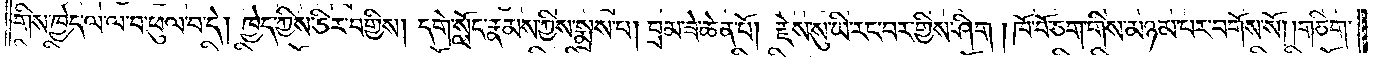གིས་ཁྱེད་ལ་ལ་བ་ཕུལ་བ་དེ། ཁྱེད་ཀྱིས་ཅིར་བགྱིས། དགེ་སློང་རྣམས་ཀྱིས་སྨྲས་པ། བྲམ་ཟེ་ཆེན་པོ། རྗེས་སུ་ཡི་རང་བར་གྱིས་ཤིག །ཁོ་བོ་ཅག་གིས་མཉམ་པར་བགོས་སོ། །གཅིག་
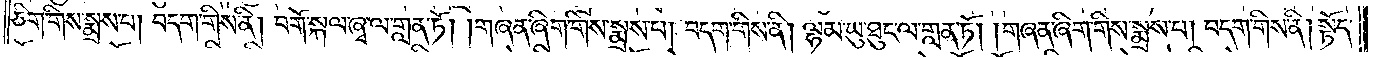ཅིག་གིས་སྨྲས་པ། བདག་གིས་ནི། བགོ་སྐལ་ཞྭ་ལ་གླན་ཏོ། །གཞན་ཞིག་གིས་སྨྲས་པ། བདག་གིས་ནི། ལྷམ་ཡུ་ཐུང་ལ་གླན་ཏོ། །གཞན་ཞིག་གིས་སྨྲས་པ། བདག་གིས་ནི། སྟོད་
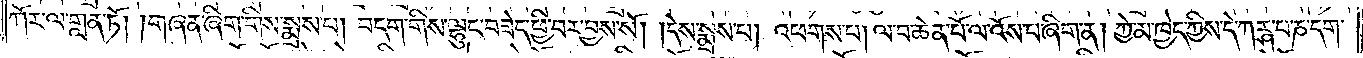ཀོར་ལ་གླན་ཏོ། །གཞན་ཞིག་གིས་སྨྲས་པ། བདག་གིས་ལྷུང་བཟེད་ཕྱི་བར་བྱས་སོ། །དེས་སྨྲས་པ། འཕགས་པ། ལ་བ་ཆེན་པོ་ལ་འོས་པ་ཞིག་ན། ཀྱེ་མ་ཁྱེད་ཀྱིས་དེ་ཀརྴ་པ་ཎ་དག་
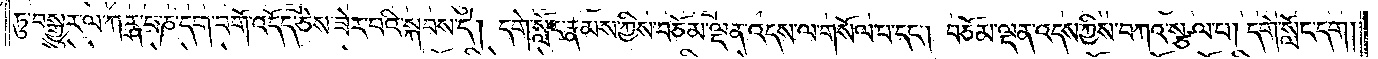ཏུ་བསྒྱུར་ལ་ཀཪྴ་པ་ཎ་དག་བགོ་འདོད་ཅེས་ཟེར་བའི་སྐབས་དེ། དགེ་སློང་རྣམས་ཀྱིས་བཅོམ་ལྡན་འདས་ལ་གསོལ་པ་དང༌། བཅོམ་ལྡན་འདས་ཀྱིས་བཀའ་སྩལ་པ། དགེ་སློང་དག།
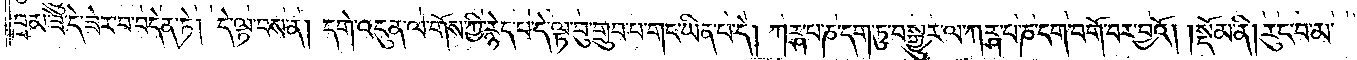བྲམ་ཟེ་དེ་ཟེར་བ་བདེན་ཏེ། དེ་ལྟ་བས་ན། དགེ་འདུན་ལ་གོས་ཀྱི་རྙེད་པ་དེ་ལྟ་བུ་གྲུབ་པ་གང་ཡིན་པ་དེ། ཀཪྴ་པ་ཎ་དག་ཏུ་བསྒྱུར་ལ་ཀཪྴ་པ་ཎ་དག་བགོ་བར་བྱའོ།    །སྡོམ་ནི། རུང་བ་མ་
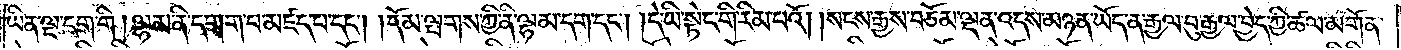ཡིན་ལྔ་དག་གི །ལྷམ་ནི་དགག་པ་མཛད་པ་དང༌། །དོམ་ལྤགས་ཀྱི་ནི་ལྷམ་དག་དང༌། །དེ་ཡི་སྟེང་གི་རིམ་པའོ། །སངས་རྒྱས་བཅོམ་ལྡན་འདས་མཉན་ཡོད་ན་རྒྱལ་བུ་རྒྱལ་བྱེད་ཀྱི་ཚལ་མགོན་
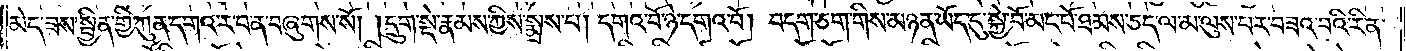མེད་ཟས་སྦྱིན་གྱི་ཀུན་དགའ་ར་བ་ན་བཞུགས་སོ། །དྲུག་སྡེ་རྣམས་ཀྱིས་སྨྲས་པ། དགའ་བོ་ཉེ་དགའ་བོ། བདག་ཅག་གིས་མཉན་ཡོད་དུ་སྐྱེ་བོ་མང་པོ་ཐམས་ཅད་ལ་མ་ལུས་པར་བཟའ་བའི་རིན་
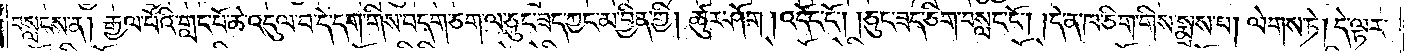བསླངས་ན། རྒྱལ་པོའི་གླང་པོ་ཆེ་འདུལ་བ་དེ་དག་གིས་བདག་ཅག་ལ་ཅུང་ཟད་ཀྱང་མ་བྱིན་གྱི། ཚུར་ཤོག །འདོང་ངོ༌། །ཅུང་ཟད་ཅིག་བསླང་ངོ༌། །དེ་ན་ཁ་ཅིག་གིས་སྨྲས་པ། ལེགས་ཏེ། དེ་ལྟར་
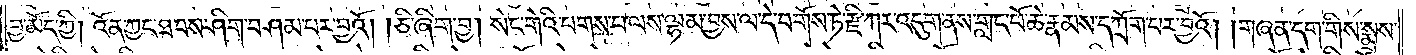བྱ་མོད་ཀྱི། འོན་ཀྱང་ཐབས་ཤིག་བཤམ་པར་བྱའོ། །ཅི་ཞིག་བྱ། སེང་གེའི་པགས་པ་ལས་ལྷམ་བྱས་ལ་དེ་བགོས་ཏེ་རྫི་ཀར་འདུག་ནས་གླང་པོ་ཆེ་རྣམས་དཀྲོག་པར་བྱའོ། །གཞན་དག་གིས་སྨྲས་
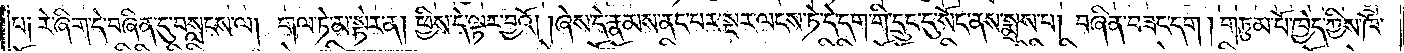པ༑ རེ་ཞིག་དེ་བཞིན་དུ་བསླངས་ལ། གལ་ཏེ་མ་སྟེར་ན། ཕྱིས་དེ་ལྟར་བྱའོ། །ཞེས་དེ་རྣམས་ནང་པར་སྔར་ལངས་ཏེ་དེ་དག་གི་དྲུང་དུ་སོང་ནས་སྨྲས་པ། བཞིན་བཟང་དག །གཏུམ་པོ་ཁྱེད་ཀྱིས་ཁོ་
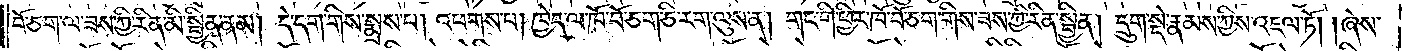པོ་ཅག་ལ་ཟས་ཀྱི་རིན་མི་སྦྱིན་ནམ། དེ་དག་གིས་སྨྲས་པ། འཕགས་པ། ཁྱེད་ལ་ཁོ་བོ་ཅག་ཅི་རག་ལུས་ན། གང་གི་ཕྱིར་ཁོ་བོ་ཅག་གིས་ཟས་ཀྱི་རིན་སྦྱིན། དྲུག་སྡེ་རྣམས་ཀྱིས་འཇལ་ཏོ། །ཞེས་
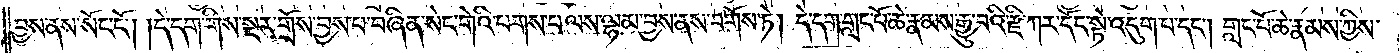བྱས་ནས་སོང་ངོ༌། །དེ་དག་གིས་སྔར་གྲོས་བྱས་པ་བཞིན་སེང་གེའི་པགས་པ་ལས་ལྷམ་བྱས་ནས་བགོས་ཏེ། དེ་དག་གླང་པོ་ཆེ་རྣམས་རྒྱུ་བའི་རྫི་ཀར་དོང་སྟེ་འདུག་པ་དང༌། གླང་པོ་ཆེ་རྣམས་ཀྱིས་
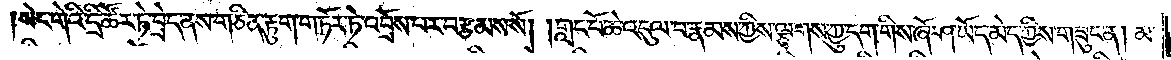སེང་གེའི་དྲི་ཚོར་ཏེ་བྲེད་ནས་གཅིན་རྟུག་གཏོར་ཏེ་འབྲོས་པར་བརྩམས་སོ། །གླང་པོ་ཆེ་འདུལ་བ་རྣམས་ཀྱིས་ལྕགས་ཀྱུ་དག་གིས་ཞོ་ཤ་ཡོད་མེད་ཀྱིས་གཟུང་ན། མ་
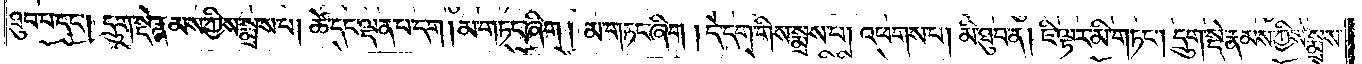ཐུབ་པ་དང༌། དྲུག་སྡེ་རྣམས་ཀྱིས་སྨྲས་པ། ཚེ་དང་ལྡན་པ་དག །མ་གཏང་ཞིག། མ་གཏང་ཞིག། དེ་དག་གིས་སྨྲས་པ། འཕགས་པ། མི་ཐུབ་ན། ཇི་ལྟར་མི་གཏང༌། དྲུག་སྡེ་རྣམས་ཀྱིས་སྨྲས་
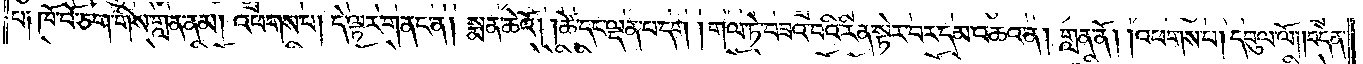པ༑ ཁོ་བོ་ཅག་གིས་གླན་ནམ། འཕགས་པ། དེ་ལྟར་གནང་ན། སྨན་ཆེའོ། །ཚེ་དང་ལྡན་པ་དག །གལ་ཏེ་བཟའ་བའི་རིན་སྟེར་བར་དམ་འཆའ་ན། གླན་ནོ། །འཕགས་པ། དབུལ་ལོ། །བདེན་
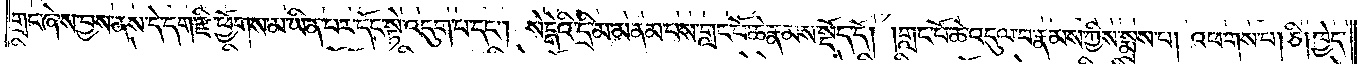གྲང་ཞེས་བྱས་ནས་དེ་དག་རྫི་ཕྱོགས་མ་ཡིན་པར་དོང་སྟེ་འདུག་པ་དང༌། སེངྒེའི་དྲི་མ་མནམ་པས་གླང་པོ་ཆེ་རྣམས་སྡོད་དོ། །གླང་པོ་ཆེ་འདུལ་བ་རྣམས་ཀྱིས་སྨྲས་པ། འཕགས་པ། ཅི། ཁྱེད་
